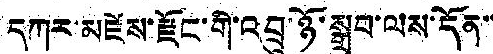དཀར་མཛེས་རྫོང་གི་འབྲུ་ཉོ་སྒྲུབ་ལས་དོན་་
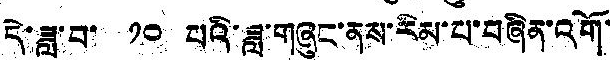དེ་ཟླ་བ་ ༡༠ པའི་ཟླ་གཞུང་ནས་རིམ་པ་བཞིན་འགོ་
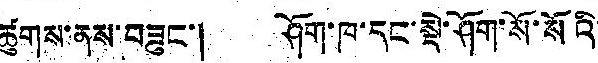ཚུགས་ནས་བཟུང་། ཤོག་ཁ་དང་སྡེ་ཤོག་སོ་སོའི་
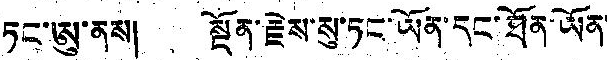ཏང་ཨུ་ནས། སྔོན་རྗེས་སུ་ཏང་ཡོན་དང་ཐོན་ཡོན་
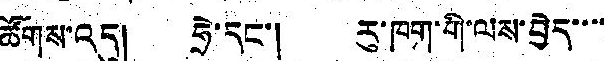ཚོགས་འདུ། ཧྲེ་དང་། རུ་ཁག་གི་ལས་བྱེད་་་་
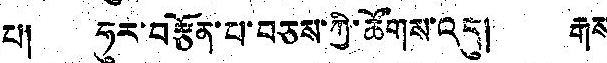པ། ཧུར་བརྩོན་པ་བཅས་ཀྱི་ཚོགས་འདུ། རྒས
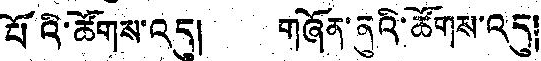པོའི་ཚོགས་འདུ། གཞོན་ནུའི་ཚོགས་འདུ།
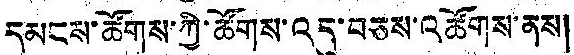དམངས་ཚོགས་ཀྱི་ཚོགས་འདུ་བཅས་འཚོགས་ནས།
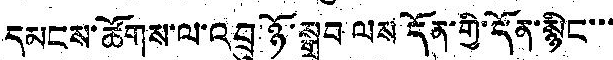དམངས་ཚོགས་ལ་འབྲུ་ཉོ་སྒྲུབ ལས དོན་གྱི་དོན་སྙིང་་་
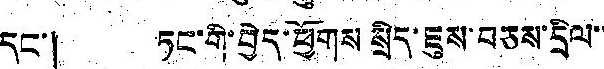དང་། ཏང་གི་བྱེད་ཕྱོགས སྲིད་ཇུས་བཅས་དྲིལ་་
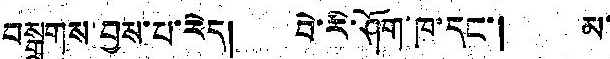བསྒྲགས་བྱས་པ་རེད། བེ་རི་ཤོག་ཁ་དང་། མ་
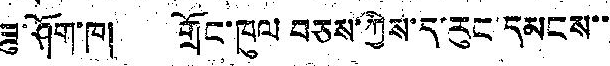ཟུ་ཤོག་ཁ། གྲོང་ཁུལ བཅས་ཀྱིས་ད་རུང་དམངས་་
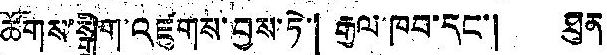ཚོགས་སྒྲིག་འཛུགས་བྱས་ཏེ་「རྒྱལ་ཁབ་དང་། ཐུན
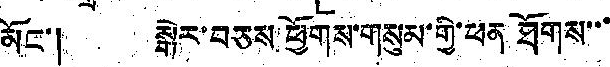མོང་། སྒེར་བཅས ཕྱོགས་གསུམ་གྱི་ཕན ཐོགས་་་
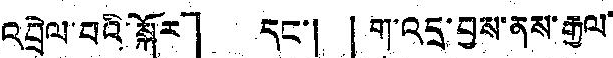འབྲེལ་བའི་སྐོར」 དང་། 「ག་འདྲ་བྱས་ནས་རྒྱལ་
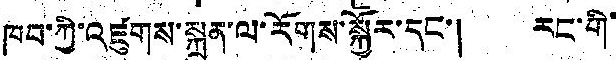ཁབ་ཀྱི་འཛུགས་སྐྲུན་ལ་རོགས་སྐྱོར་དང་། རང་གི་
